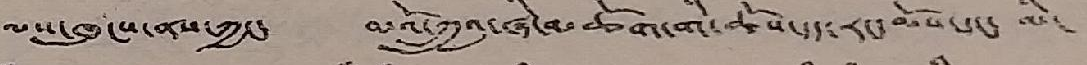ལས་ཁུངས་ནས་ཀྱང་ མའོ་ཀྲུའུ་ཞི་མཆོག་གི་ཆོས་དད་རང་མོས་དང་ མི་
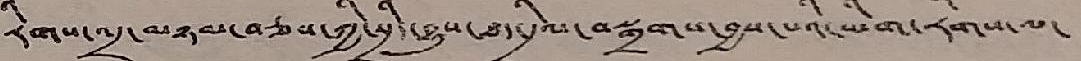རིགས་འདྲ་མཉམ་བཅས་ཀྱི་སྲིད་བྱུས་ཐད་དྲིལ་བསྒྲགས་བྱས་པའི་ཡིག་རིགས་ལ་
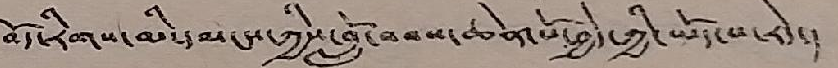བོད་རིགས་མི་དམངས་ཀྱིས་བློ་བབས་ཆེན་པོ་བྱེད་ཀྱི་ཡོད་པ་རེད་།
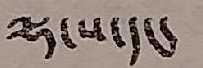ལྷ་ས་དང་
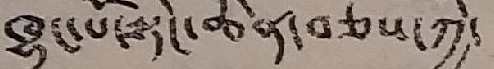ཁྱུང་པོ་སྟེང་ཆེན་བཅས་ཀྱི་
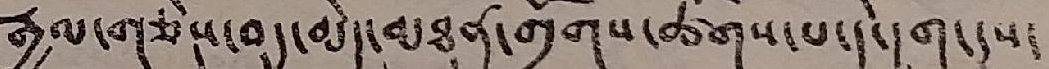རྒྱལ་གཅེས་བུད་མེད་མཐུན་གྲོགས་ཚོགས་པ་དེ་དག་དུས་
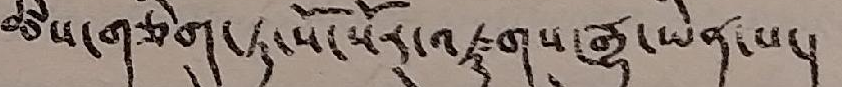ཚེས་གཅིག་ཏུ་སོ་སོར་འཛུགས་རྒྱུ་ཡིན་པ་།
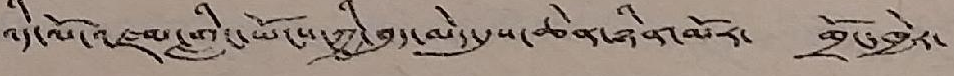འདི་ལོ་འཛམ་གླིང་ཡོངས་ཀྱི་བུད་མེད་དུས་ཆེན་ཉིན་མོར་ གྲོང་ཁྱེར་
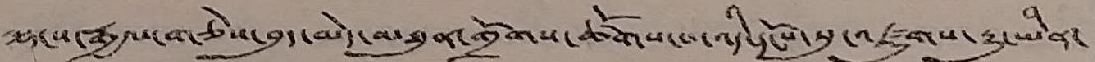ལྷ་ས་རྒྱལ་གཅེས་བུད་མེད་མཐུན་གྲོགས་ཚོགས་པ་འདི་དངོས་སུ་འཛུགས་རྒྱུ་ཡིན་
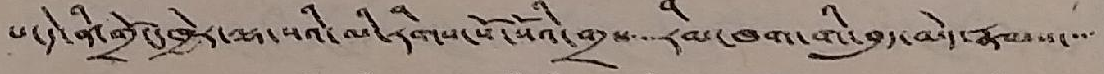པ་དེ་ནི་གྲོང་ཁྱེར་ལྷ་སའི་མི་རིགས་སོ་སོའི་གྲས་་་རིམ་ཁག་གི་བུད་མེད་རྣམས་་་་
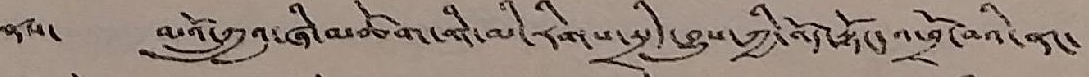ནས་ མའོ་ཀྲུའུ་ཞི་མཆོག་གི་མི་རིགས་སྲིད་བྱུས་ཀྱི་འོད་སྟོང་འཕྲོ་བའི་ནང་
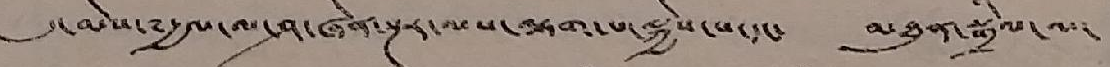དུ་མེས་༸རྒྱལ་ལ་ཤ་ཞེན་སྔར་ལས་ལྷག་པ་སྐྱེས་པ་དང་ མཐུན་སྒྲིལ་ལ་
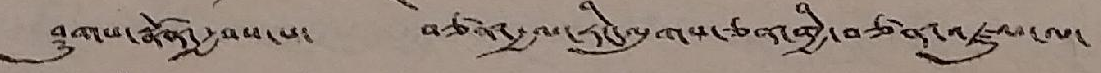ཤུགས་སྣོན་རྒྱབས་པ་ བཙན་རྒྱལ་རིང་ལུགས་ཅན་གྱི་བཙན་འཛུལ་ལ་
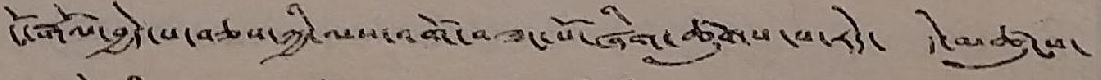ངོ་རྒོལ་བྱེད་པ་བཅས་ཀྱི་ལས་འགོ་བཟང་པོ་ཞིག་ཚུགས་པ་རེད་ དེ་མཚུངས་
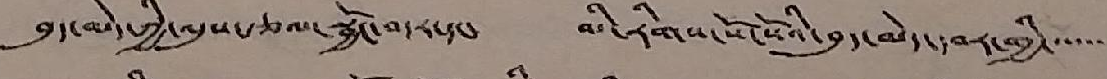བུད་མེད་ཀྱི་ལུས་རྩལ་སྦྱོང་བདར་དང་ མི་རིགས་སོ་སོའི་བུད་མེད་དབར་གྱི་་་་་་
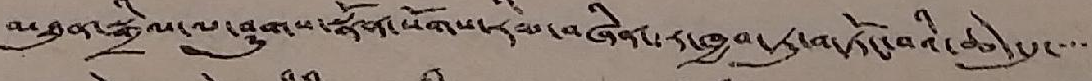མཐུན་སྒྲིལ་ལ་ཤུགས་སྣོན་སོགས་རིམ་བཞིན་དར་ཁྱབ་ཏུ་གཏོང་བའི་ཆེད་དུ་་་་
